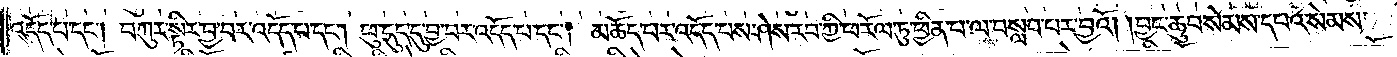འདོད་པ་དང༌། བཀུར་སྟིར་བྱ་བར་འདོད་པ་དང༌། ཕུ་དུད་དུ་བྱ་བར་འདོད་པ་དང༌། མཆོད་པར་འདོད་པས་ཤེས་རབ་ཀྱི་ཕ་རོལ་ཏུ་ཕྱིན་པ་ལ་བསླབ་པར་བྱའོ། །བྱང་ཆུབ་སེམས་དཔའ་སེམས་
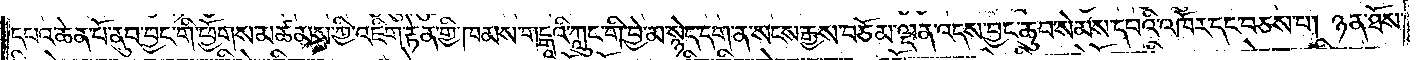དཔའ་ཆེན་པོ་ནུབ་བྱང་གི་ཕྱོགས་མཚམས་ཀྱི་འཇིག་རྟེན་གྱི་ཁམས་གངྒཱའི་ཀླུང་གི་བྱེ་མ་སྙེད་དག་ན་སངས་རྒྱས་བཅོམ་ལྡན་འདས་བྱང་ཆུབ་སེམས་དཔའི་འཁོར་དང་བཅས་པ། ཉན་ཐོས་
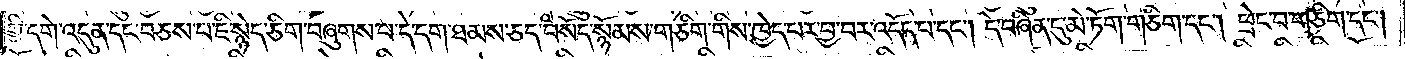གྱི་དགེ་འདུན་དང་བཅས་པ་ཇི་སྙེད་ཅིག་བཞུགས་པ་དེ་དག་ཐམས་ཅད་བསོད་སྙོམས་གཅིག་གིས་ཁྱེད་པར་བྱ་བར་འདོད་པ་དང༌། དེ་བཞིན་དུ་མེ་ཏོག་གཅིག་དང༌། ཕྲེང་བ་གཅིག་དང༌།
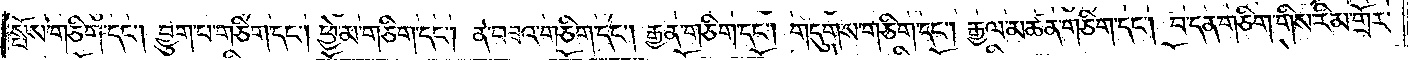སྤོས་གཅིག་དང༌། བྱུག་པ་གཅིག་དང༌། ཕྱེ་མ་གཅིག་དང༌། ན་བཟའ་གཅིག་དང༌། རྒྱན་གཅིག་དང༌། གདུགས་གཅིག་དང༌། རྒྱལ་མཚན་གཅིག་དང༌། བ་དན་གཅིག་གིས་རིམ་གྲོར་
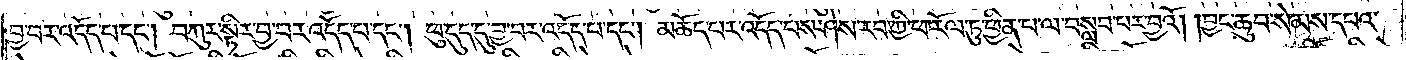བྱ་བར་འདོད་པ་དང༌། བཀུར་སྟིར་བྱ་བར་འདོད་པ་དང༌། ཕུ་དུད་དུ་བྱ་བར་འདོད་པ་དང༌། མཆོད་པར་འདོད་པས་ཤེས་རབ་ཀྱི་ཕ་རོལ་ཏུ་ཕྱིན་པ་ལ་བསླབ་པར་བྱའོ། །བྱང་ཆུབ་སེམས་དཔའ་
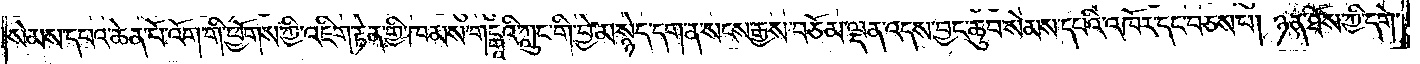སེམས་དཔའ་ཆེན་པོ་འོག་གི་ཕྱོགས་ཀྱི་འཇིག་རྟེན་གྱི་ཁམས་གངྒཱའི་ཀླུང་གི་བྱེ་མ་སྙེད་དག་ན་སངས་རྒྱས་བཅོམ་ལྡན་འདས་བྱང་ཆུབ་སེམས་དཔའི་འཁོར་དང་བཅས་པ། ཉན་ཐོས་ཀྱི་དགེ་
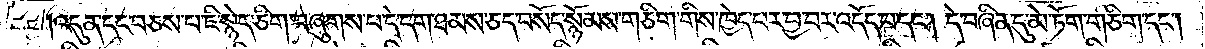འདུན་དང་བཅས་པ་ཇི་སྙེད་ཅིག་བཞུགས་པ་དེ་དག་ཐམས་ཅད་བསོད་སྙོམས་གཅིག་གིས་ཁྱེད་པར་བྱ་བར་འདོད་པ་དང༌། དེ་བཞིན་དུ་མེ་ཏོག་གཅིག་དང༌།
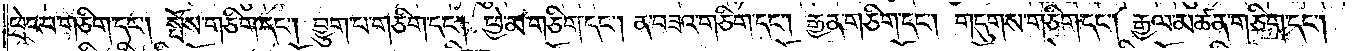ཕྲེང་བ་གཅིག་དང༌། སྤོས་གཅིག་དང༌། བྱུག་པ་གཅིག་དང༌། ཕྱེ་མ་གཅིག་དང༌། ན་བཟའ་གཅིག་དང༌། རྒྱན་གཅིག་དང༌། གདུགས་གཅིག་དང༌། རྒྱལ་མཚན་གཅིག་དང༌།
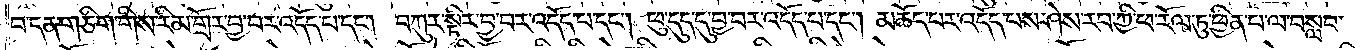བ་དན་གཅིག་གིས་རིམ་གྲོར་བྱ་བར་འདོད་པ་དང༌། བཀུར་སྟིར་བྱ་བར་འདོད་པ་དང༌། ཕུ་དུད་དུ་བྱ་བར་འདོད་པ་དང༌། མཆོད་པར་འདོད་པས་ཤེས་རབ་ཀྱི་ཕ་རོལ་ཏུ་ཕྱིན་པ་ལ་བསླབ་
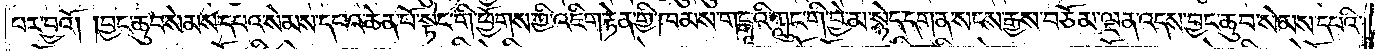པར་བྱའོ། །བྱང་ཆུབ་སེམས་དཔའ་སེམས་དཔའ་ཆེན་པོ་སྟེང་གི་ཕྱོགས་ཀྱི་འཇིག་རྟེན་གྱི་ཁམས་གངྒཱའི་ཀླུང་གི་བྱེ་མ་སྙེད་དག་ན་སངས་རྒྱས་བཅོམ་ལྡན་འདས་བྱང་ཆུབ་སེམས་དཔའི་
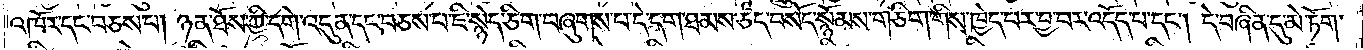འཁོར་དང་བཅས་པ། ཉན་ཐོས་ཀྱི་དགེ་འདུན་དང་བཅས་པ་ཇི་སྙེད་ཅིག་བཞུགས་པ་དེ་དག་ཐམས་ཅད་བསོད་སྙོམས་གཅིག་གིས་ཁྱེད་པར་བྱ་བར་འདོད་པ་དང༌། དེ་བཞིན་དུ་མེ་ཏོག་
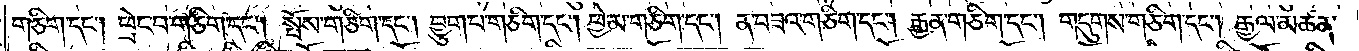གཅིག་དང༌། ཕྲེང་བ་གཅིག་དང༌། སྤོས་གཅིག་དང༌། བྱུག་པ་གཅིག་དང༌། ཕྱེ་མ་གཅིག་དང༌། ན་བཟའ་གཅིག་དང༌། རྒྱན་གཅིག་དང༌། གདུགས་གཅིག་དང༌། རྒྱལ་མཚན་
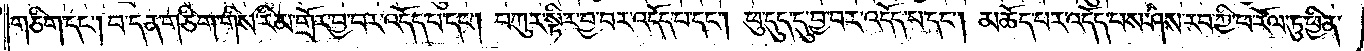གཅིག་དང༌། བ་དན་གཅིག་གིས་རིམ་གྲོར་བྱ་བར་འདོད་པ་དང༌། བཀུར་སྟིར་བྱ་བར་འདོད་པ་དང༌། ཕུ་དུད་དུ་བྱ་བར་འདོད་པ་དང༌། མཆོད་པར་འདོད་པས་ཤེས་རབ་ཀྱི་ཕ་རོལ་ཏུ་ཕྱིན་
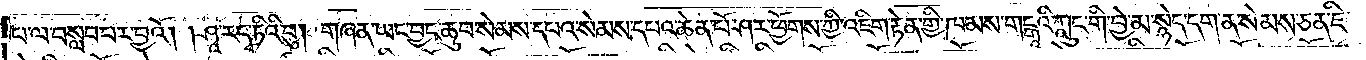པ་ལ་བསླབ་པར་བྱའོ། །ཤཱ་ར་དྭ་ཏིའི་བུ། གཞན་ཡང་བྱང་ཆུབ་སེམས་དཔའ་སེམས་དཔའ་ཆེན་པོ་ཤར་ཕྱོགས་ཀྱི་འཇིག་རྟེན་གྱི་ཁམས་གངྒཱའི་ཀླུང་གི་བྱེ་མ་སྙེད་དག་ན་སེམས་ཅན་ཇི་
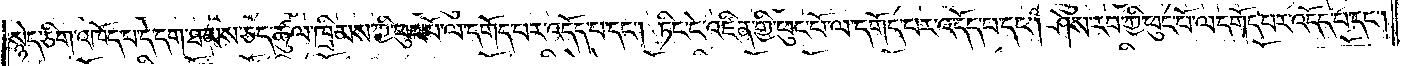སྙེད་ཅིག་འཁོད་པ་དེ་དག་ཐམས་ཅད་ཚུལ་ཁྲིམས་ཀྱི་ཕུང་པོ་ལ་དགོད་པར་འདོད་པ་དང༌། ཏིང་ངེ་འཛིན་གྱི་ཕུང་པོ་ལ་དགོད་པར་འདོད་པ་དང༌། ཤེས་རབ་ཀྱི་ཕུང་པོ་ལ་དགོད་པར་འདོད་པ་དང༌།
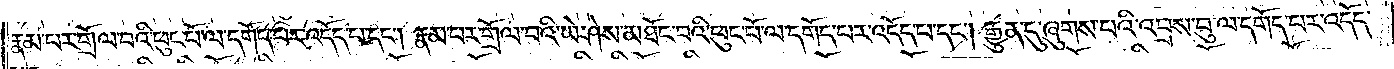རྣམ་པར་གྲོལ་བའི་ཕུང་པོ་ལ་དགོད་པར་འདོད་པ་དང༌། རྣམ་པར་གྲོལ་བའི་ཡེ་ཤེས་མཐོང་བའི་ཕུང་པོ་ལ་དགོད་པར་འདོད་པ་དང༌། རྒྱུན་དུ་ཞུགས་པའི་འབྲས་བུ་ལ་དགོད་པར་འདོད་
